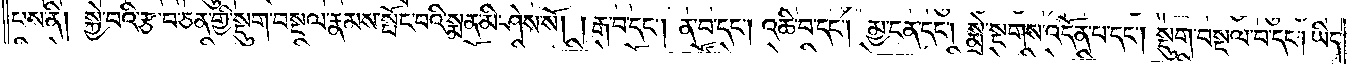པས་ནི། སྐྱེ་བའི་རྩ་བ་ཅན་གྱི་སྡུག་བསྔལ་རྣམས་སྤོང་བའི་སྨན་མི་ཤེས་སོ། །རྒ་བ་དང༌། ན་བ་དང༌། འཆི་བ་དང༌། མྱ་ངན་དང༌། སྨྲེ་སྔགས་འདོན་པ་དང༌། སྡུག་བསྔལ་བ་དང༌། ཡིད་
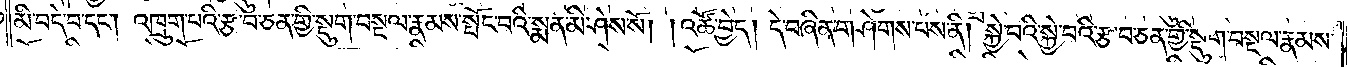མི་བདེ་བ་དང༌། འཁྲུག་པའི་རྩ་བ་ཅན་གྱི་སྡུག་བསྔལ་རྣམས་སྤོང་བའི་སྨན་མི་ཤེས་སོ། །འཚོ་བྱེད། དེ་བཞིན་གཤེགས་པས་ནི། སྐྱེ་བའི་སྐྱེ་བའི་རྩ་བ་ཅན་གྱི་སྡུག་བསྔལ་རྣམས་
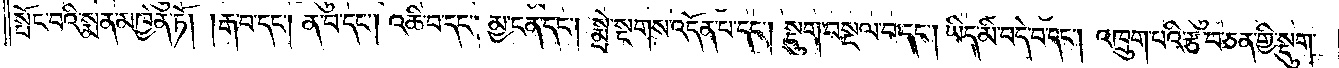སྤོང་བའི་སྨན་མཁྱེན་ཏོ། །རྒ་བ་དང༌། ན་བ་དང༌། འཆི་བ་དང༌། མྱ་ངན་དང༌། སྨྲེ་སྔགས་འདོན་པ་དང༌། སྡུག་བསྔལ་བ་དང༌། ཡིད་མི་བདེ་བ་དང༌། འཁྲུག་པའི་རྩ་བ་ཅན་གྱི་སྡུག་
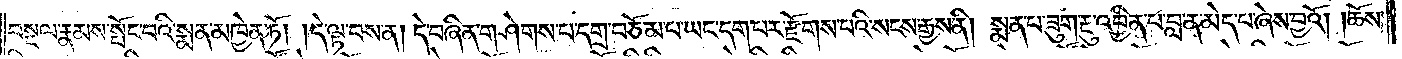བསྔལ་རྣམས་སྤོང་བའི་སྨན་མཁྱེན་ཏོ། །དེ་ལྟ་བས་ན། དེ་བཞིན་གཤེགས་པ་དགྲ་བཅོམ་པ་ཡང་དག་པར་རྫོགས་པའི་སངས་རྒྱས་ནི། སྨན་པ་ཟུག་རྔུ་འབྱིན་པ་བླ་ན་མེད་པ་ཞེས་བྱའོ། །ཆོས་
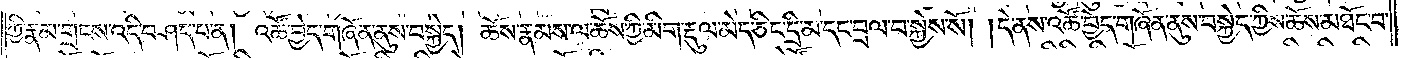ཀྱི་རྣམ་གྲངས་འདི་བཤད་པ་ན། འཚོ་བྱེད་གཞོན་ནུས་བསྐྱེད། ཆོས་རྣམས་ལ་ཆོས་ཀྱི་མིག་རྡུལ་མེད་ཅིང་དྲི་མ་དང་བྲལ་བ་སྐྱེས་སོ། །དེ་ནས་འཚོ་བྱེད་གཞོན་ནུས་བསྐྱེད་ཀྱིས་ཆོས་མཐོང་བ་
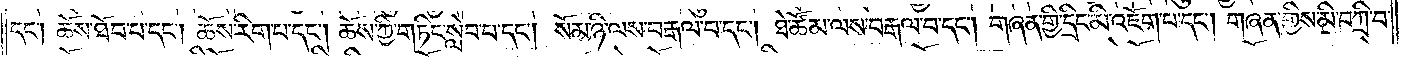དང༌། ཆོས་ཐོབ་པ་དང༌། ཆོས་རིག་པ་དང༌། ཆོས་ཀྱི་གཏིང་སླེབ་པ་དང༌། སོམ་ཉི་ལས་བརྒལ་བ་དང༌། ཐེ་ཚོམ་ལས་བརྒལ་བ་དང༌། གཞན་གྱི་དྲིང་མི་འཇོག་པ་དང༌། གཞན་གྱིས་མི་བཀྲི་བ་
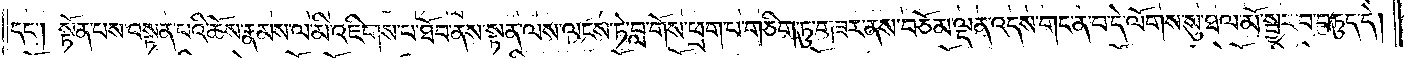དང༌། སྟོན་པས་བསྟན་པའི་ཆོས་རྣམས་ལ་མི་འཇིགས་པ་ཐོབ་ནས་སྟན་ལས་ལངས་ཏེ་བླ་གོས་ཕྲག་པ་གཅིག་ཏུ་གཟར་ནས་བཅོམ་ལྡན་འདས་གང་ན་བ་དེ་ལོགས་སུ་ཐལ་མོ་སྦྱར་བ་བཏུད་དེ།
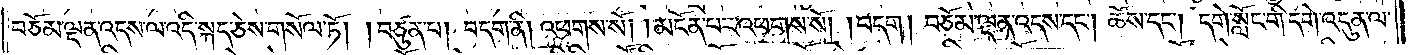བཅོམ་ལྡན་འདས་ལ་འདི་སྐད་ཅེས་གསོལ་ཏོ། །བཙུན་པ། བདག་ནི། འཕགས་སོ། །མངོན་པར་འཕགས་སོ། །བདག། བཅོམ་ལྡན་འདས་དང༌། ཆོས་དང༌། དགེ་སློང་གི་དགེ་འདུན་ལ་
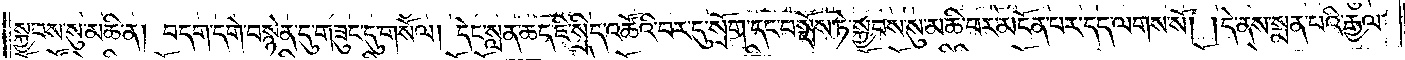སྐྱབས་སུ་མཆི་ན། བདག་དགེ་བསྙེན་དུ་གཟུང་དུ་གསོལ། དེང་སླན་ཆད་ཇི་སྲིད་འཚོའི་བར་དུ་སྲོག་དང་བསྡོས་ཏེ་སྐྱབས་སུ་མཆི་བར་མངོན་པར་དད་ལགས་སོ། །དེ་ནས་སྨན་པའི་རྒྱལ་
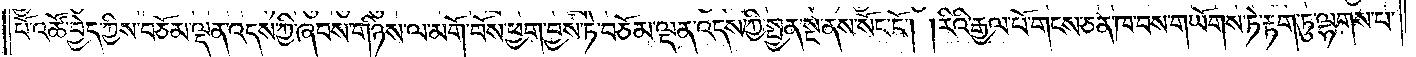པོ་འཚོ་བྱེད་ཀྱིས་བཅོམ་ལྡན་འདས་ཀྱི་ཞབས་གཉིས་ལ་མགོ་བོས་ཕྱག་བྱས་ཏེ་བཅོམ་ལྡན་འདས་ཀྱི་སྤྱན་སྔ་ནས་སོང་ངོ༌། །རིའི་རྒྱལ་པོ་གངས་ཅན་ཁ་བས་གཡོགས་ཏེ་རྟག་ཏུ་ལྷགས་པ་
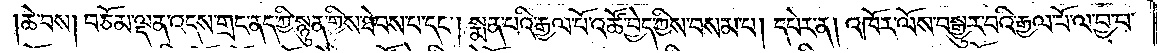།ཆེ་བས། བཅོམ་ལྡན་འདས་གྲང་ནད་ཀྱིས་སྙུན་གྱིས་ཐེབས་པ་དང༌། སྨན་པའི་རྒྱལ་པོ་འཚོ་བྱེད་ཀྱིས་བསམ་པ། དཔེར་ན། འཁོར་ལོས་བསྒྱུར་བའི་རྒྱལ་པོ་ལ་བྱ་བ་
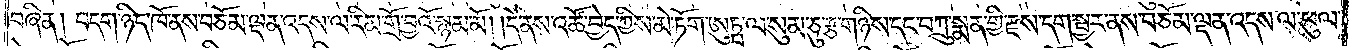བཞིན། བདག་ཉིད་ཁོ་ནས་བཅོམ་ལྡན་འདས་ལ་རིམ་གྲོ་བྱའོ་སྙམ་མོ། །དེ་ནས་འཚོ་བྱེད་ཀྱིས་མེ་ཏོག་ཨུཏྤ་ལ་སུམ་ཅུ་རྩ་གཉིས་དང་བཀྲུ་སྨན་གྱི་རྫས་དག་སྦྱར་ནས་བཅོམ་ལྡན་འདས་ལ་ཕུལ་
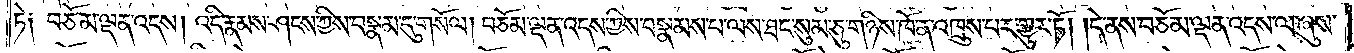ཏེ༑ བཅོམ་ལྡན་འདས། འདི་རྣམས་ཤངས་ཀྱིས་བསྣམ་དུ་གསོལ། བཅོམ་ལྡན་འདས་ཀྱིས་བསྣམས་པ་ལས་ཐང་སུམ་ཅུ་གཉིས་ཁོ་ན་འཁྲུས་པར་གྱུར་ཏོ། །དེ་ནས་བཅོམ་ལྡན་འདས་ལ་ཞུས་
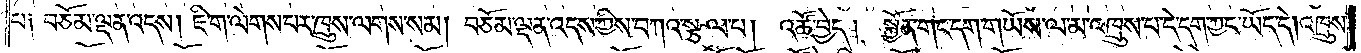པ། བཅོམ་ལྡན་འདས། ཇི་ག་ལེགས་པར་ཁྲུས་ལེགས་སམ། བཅོམ་ལྡན་འདས་ཀྱིས་བཀའ་སྩལ་པ། འཚོ་བྱེད། སྐྱོན་གང་དག་གཡོས་ལ་མ་འཁྲུས་པ་དེ་དག་ཀྱང་ཡོད་དེ། འཁྲུས་
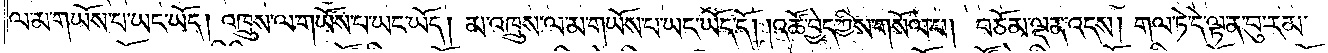ལ་མ་གཡོས་པ་ཡང་ཡོད། འཁྲུས་ལ་གཡས་པ་ཡང་ཡོད། མ་འཁྲུས་ལ་མ་གཡོས་པ་ཡང་ཡོད་དོ། །འཚོ་བྱེད་ཀྱིས་གསོལ་པ། བཅོམ་ལྡན་འདས། གལ་ཏེ་དེ་ལྟ་ན་བུ་རམ་
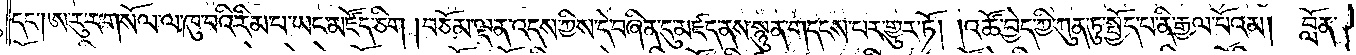དང༌། ཨ་རུ་ར་གསོལ་ལ་ཁུ་བའི་རིམ་པ་ཡང་མཛོད་ཅིག། བཅོམ་ལྡན་འདས་ཀྱིས་དེ་བཞིན་དུ་མཛད་ནས་སྙུན་གདངས་པར་གྱུར་ཏོ། །འཚོ་བྱེད་ཀྱི་ཀུན་ཏུ་སྤྱོད་པ་ནི་རྒྱལ་པོའམ། བློན་
